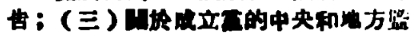告；（三）關於成立黨的中央和地方監
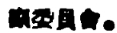察委員會。
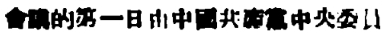會議的第一日由中國共產黨中央委員
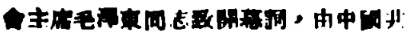會主席毛澤東同志致開幕詞，由中國共
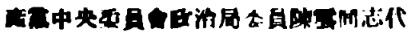產黨中央委員會政治局委員陳雲同志代
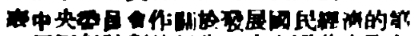表中央委員會作關於發展國民經濟的第
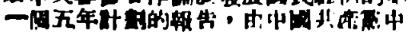一個五年計劃的報告，由中國共產黨中
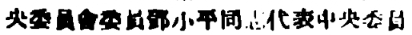央委員會委員鄧小平同志代表中央委員
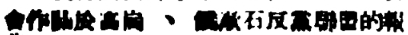會作關於高崗 、饒漱石反黨聯盟的報
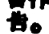告。
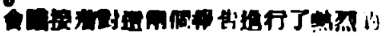會議接着對這兩個報告進行了熱烈的
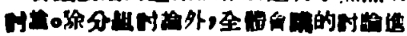討論。除分組討論外，全體會議的討論進
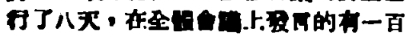行了八天，在全體會議上發言的有一百
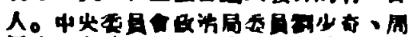人。中央委員會政治局委員劉少奇、周
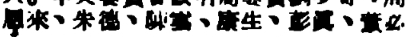恩來、朱德、陳雲、康生、彭眞、董必
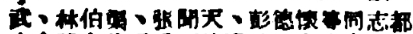武、林伯渠、張聞天、彭德懷等同志都
